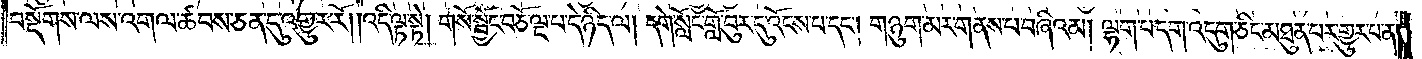བསྡོགས་ལས་འགལ་ཚབས་ཅན་དུ་འགྱུར་རོ། །འདི་ལྟ་སྟེ། གསོ་སྦྱོང་བཅོ་ལྔ་པ་དེ་ཉིད་ལ། དགེ་སློང་གློ་བུར་དུ་འོངས་པ་དང༌། གཉུག་མར་གནས་པ་བཞིའམ། ལྷག་པ་དག་འདུག་ཅིང་མཐུན་པར་གྱུར་པ་ན།
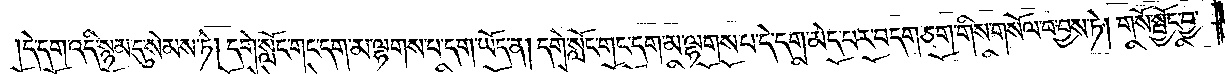དེ་དག་འདི་སྙམ་དུ་སེམས་ཏེ། དགེ་སློང་གང་དག་མ་ལྷགས་པ་དག་ཡོད་ན། དགེ་སློང་གང་དག་མ་ལྷགས་པ་དེ་དག་མེད་པར་བདག་ཅག་གིས་གསོལ་བ་བྱས་ཏེ། གསོ་སྦྱོང་བྱ་
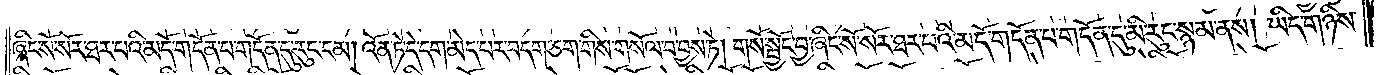ཞིང་སོ་སོར་ཐར་པའི་མདོ་གདོན་པ་གདོན་དུ་རུང་ངམ། འོན་ཏེ་དེ་དག་མེད་པར་བདག་ཅག་གིས་གསོལ་བ་བྱས་ཏེ། གསོ་སྦྱོང་བྱ་ཞིང་སོ་སོར་ཐར་པའི་མདོ་གདོན་པ་གདོན་དུ་མི་རུང་སྙམ་ནས། ཡིད་གཉིས་
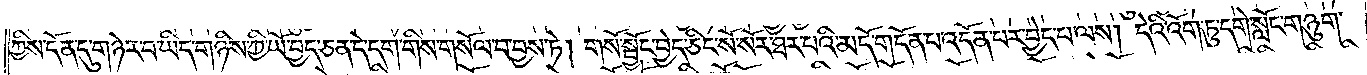ཀྱིས་དོན་དུ་གཉེར་བ་ཡིད་གཉིས་ཀྱི་ཡོ་བྱད་ཅན་དེ་དག་གིས་གསོལ་བ་བྱས་ཏེ། གསོ་སྦྱོང་བྱེད་ཅིང་སོ་སོར་ཐར་པའི་མདོ་གདོན་པ་འདོན་པར་བྱེད་པ་ལས། དེའི་འོག་ཏུ་དགེ་སློང་གཉུག་
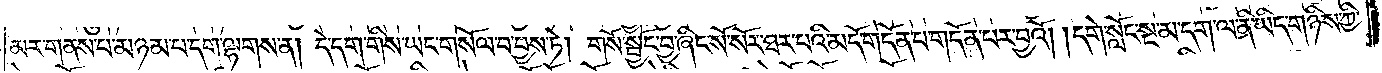མར་གནས་པ་མཉམ་པ་དག་ལྷགས་ན། དེ་དག་གིས་ཡང་གསོལ་བ་བྱས་ཏེ། གསོ་སྦྱོང་བྱ་ཞིང་སོ་སོར་ཐར་པའི་མདོ་གདོན་པ་གདོན་པར་བྱའོ། །དགེ་སློང་སྔ་མ་དག་ལ་ནི་ཡིད་གཉིས་ཀྱི་
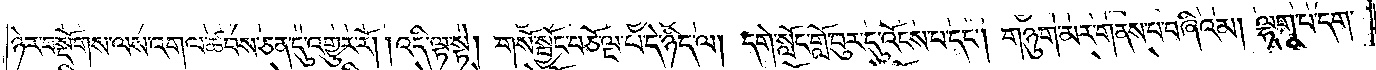ཉེར་བ་སྡོགས་ལས་འགལ་ཚབས་ཅན་དུ་འགྱུར་རོ། །འདི་ལྟ་སྟེ། གསོ་སྦྱོང་བཅོ་ལྔ་པ་དེ་ཉིད་ལ། དགེ་སློང་གློ་བུར་དུ་འོངས་པ་དང༌། གཉུག་མར་གནས་པ་བཞིའམ། ལྷག་པ་དག་
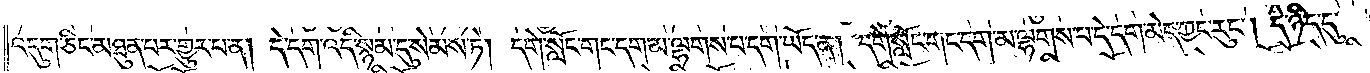འདུག་ཅིང་མཐུན་པར་གྱུར་པ་ན། དེ་དག་འདི་སྙམ་དུ་སེམས་ཏེ། དགེ་སློང་གང་དག་མ་ལྷགས་པ་དག་ཡོད་ན། དགེ་སློང་གང་དག་མ་ལྷགས་པ་དེ་དག་མེད་ཀྱང་རུང༌། དེ་ཉིད་དུ་
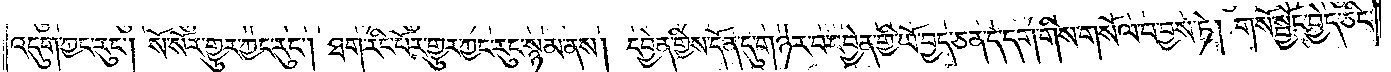འདུག་ཀྱང་རུང༌། སོ་སོར་གྱུར་ཀྱང་རུང༌། ཐག་རིང་པོར་གྱུར་ཀྱང་རུང་སྙམ་ནས། དབྱེན་གྱིས་དོན་དུ་གཉེར་བ་དབྱེན་གྱི་ཡོ་བྱད་ཅན་དེ་དག་གིས་གསོལ་བ་བྱས་ཏེ། གསོ་སྦྱོང་བྱེད་ཅིང་
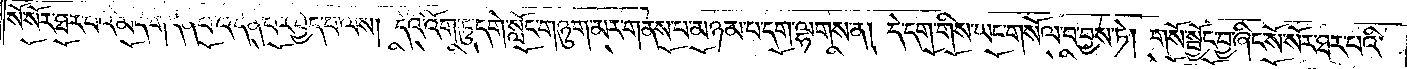སོ་སོར་ཐར་པའི་མདོ་གདོན་པ་འདོན་པར་བྱེད་པ་ལས། དེའི་འོག་ཏུ་དགེ་སློང་གཉུག་མར་གནས་པ་མཉམ་པ་དག་ལྷགས་ན། དེ་དག་གིས་ཡང་གསོལ་བ་བྱས་ཏེ། གསོ་སྦྱོང་བྱ་ཞིང་སོ་སོར་ཐར་པའི་
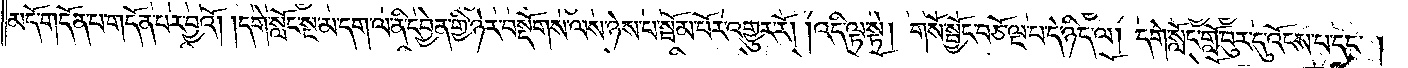མདོ་གདོན་པ་གདོན་པར་བྱའོ། །དགེ་སློང་སྔ་མ་དག་ལ་ནི་དབྱེན་གྱི་ཉེར་བསྡོགས་ལས་ཉེས་པ་སྦོམ་པོར་འགྱུར་རོ། །འདི་ལྟ་སྟེ། གསོ་སྦྱོང་བཅོ་ལྔ་པ་དེ་ཉིད་ལ། དགེ་སློང་གློ་བུར་དུ་འོངས་པ་དང༌།
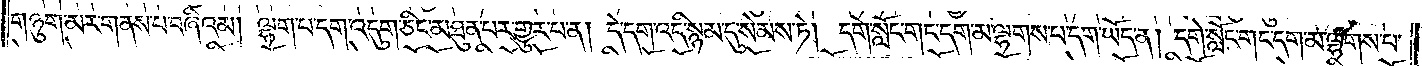གཉུག་མར་གནས་པ་བཞིའམ། ལྷག་པ་དག་འདུག་ཅིང་མཐུན་པར་གྱུར་པ་ན། དེ་དག་འདི་སྙམ་དུ་སེམས་ཏེ། དགེ་སློང་གང་དག་མ་ལྷགས་པ་དག་ཡོད་ན། དགེ་སློང་གང་དག་མ་ལྷགས་པ་
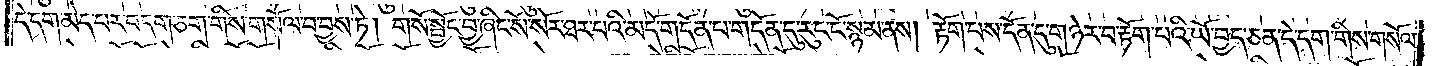དེ་དག་མེད་པར་བདག་ཅག་གིས་གསོལ་བ་བྱས་ཏེ། གསོ་སྦྱོང་བྱ་ཞིང་སོ་སོར་ཐར་པའི་མདོ་གདོན་པ་གདོན་དུ་རུང་ངོ་སྙམ་ནས། རྟོག་པས་དོན་དུ་གཉེར་བ་རྟོག་པའི་ཡོ་བྱད་ཅན་དེ་དག་གིས་གསོལ་
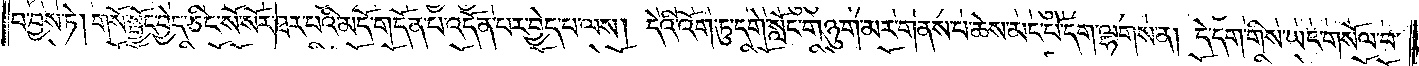བ་བྱས་ཏེ། གསོ་སྦྱོང་བྱེད་ཅིང་སོ་སོར་ཐར་པའི་མདོ་གདོན་པ་འདོན་པར་བྱེད་པ་ལས། དེའི་འོག་ཏུ་དགེ་སློང་གཉུག་མར་གནས་པ་ཆེས་མང་པོ་དག་ལྷགས་ན། དེ་དག་གིས་ཡང་གསོལ་བ་
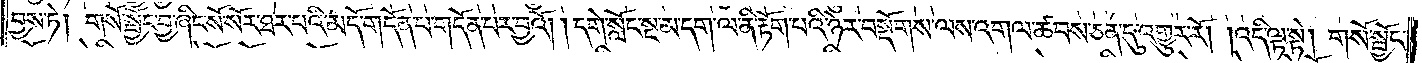བྱས་ཏེ། གསོ་སྦྱོང་བྱ་ཞིང་སོ་སོར་ཐར་པའི་མདོ་གདོན་པ་གདོན་པར་བྱའོ། །དགེ་སློང་སྔ་མ་དག་ལ་ནི་རྟོག་པའི་ཉེར་བསྡོགས་ལས་འགལ་ཚབས་ཅན་དུ་འགྱུར་རོ། །འདི་ལྟ་སྟེ། གསོ་སྦྱོང་
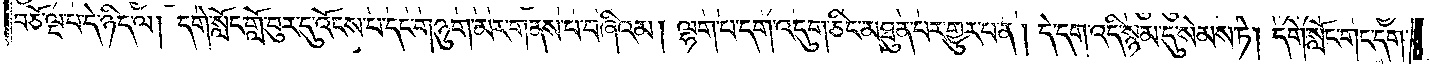བཅོ་ལྔ་པ་དེ་ཉིད་ལ། དགེ་སློང་གློ་བུར་དུ་འོངས་པ་དང་གཉུག་མར་གནས་པ་བཞིའམ། ལྷག་པ་དག་འདུག་ཅིང་མཐུན་པར་གྱུར་པ་ན། དེ་དག་འདི་སྙམ་དུ་སེམས་ཏེ། དགེ་སློང་གང་དག་
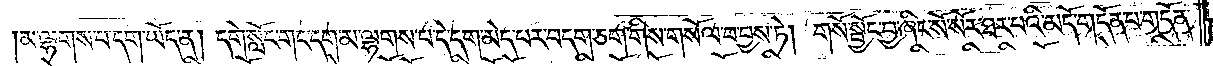མ་ལྷགས་པ་དག་ཡོད་ན། དགེ་སློང་གང་དག་མ་ལྷགས་པ་དེ་དག་མེད་པར་བདག་ཅག་གིས་གསོལ་བ་བྱས་ཏེ། གསོ་སྦྱོང་བྱ་ཞིང་སོ་སོར་ཐར་པའི་མདོ་གདོན་པ་གདོན་
